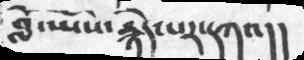བློ་ཡོས་རྙེད་པར་དཀའ།།
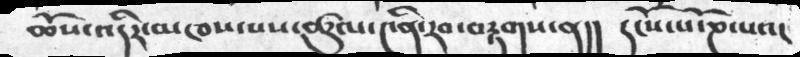ཆོས་འདིར་མཁས་པས་ཚུལ་༤ནི་རབ་བརྟགས་ན།།  དངོས་པོ་ཎ་པའང
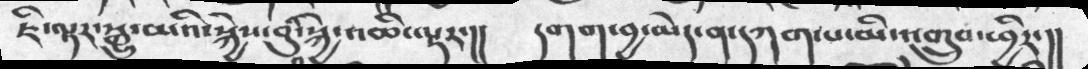ཇི་ལྟར་སྒྱུ་མའི་སྐྱེས་བུ་སྐྱེ་འཆི་ལྟར་།།   དགག་བྱ་མེད་ན་དཀག་པ་མི་འགྲུབ་ཕྱིར་།།
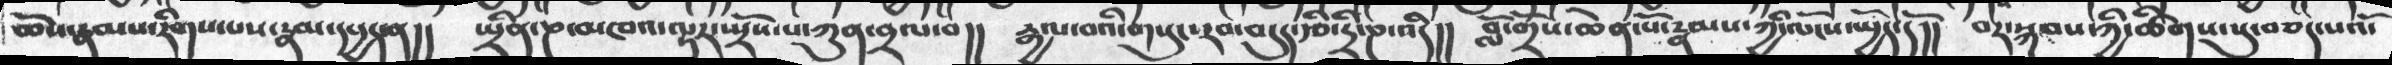ཆོས་རྣམས་རིགས་པས་རྣམ་དཔྱད་ན།།  སྤྲིན་ཎ་མཁའ་ལྟར་སྤྲོས་པ་ཀུན་བྲལ་བ།།  རྒྱལ་བའི་གསུང་རབ་བདུད་རྩི་དྲི་ཎ་འདི།།  བློ་གྲོས་ཆེན་པོ་རྣམས་ཀྱི་ལོངས་སྤྱོད་དོ།།  བར་སྐབས་ཀྱི་ཚིགས་སུ་བཅད་པའོ་
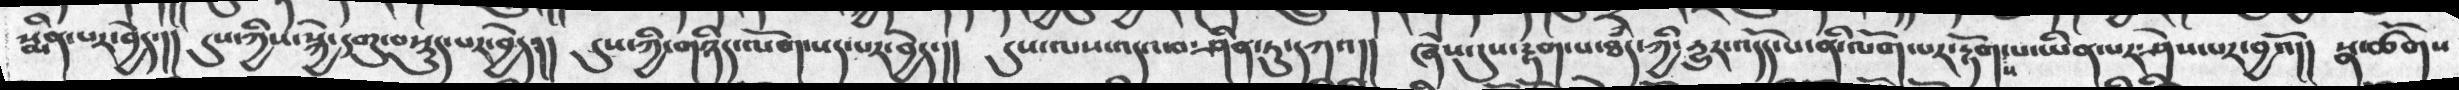སྨིན་པར་བྱེད་།།  དུས་ཀྱིས་སྐྱེ་དགུ་བསྡུད་པར་བྱེད།།  དུས་ཀྱི་གཉིད་ལོག་སད་པར་བྱེད་།།  དུས་ལས་འདའ་བ་ཤིན་ཏུ་དཀའ།།  ཞེས་དུས་རྟག་པ་ཐཾད་ཀྱི་དྱུར་འདོད་པ་ནི་ལོག་པར་རྟོགས་པ་ཡིན་པར་ཤེས་པར་བྱའོ།།  སྣ་ཚོགས
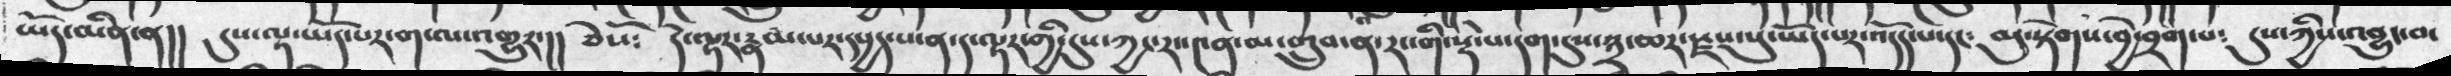ཡོད་མིན་ན།།  དུས་ལྟ་ཡོད་པར་ག་ལ་འགྱུར་།།  ཅེསོ༴  དེ་ལྟར་རྣམ་པར་དཔྱད་པ་ན་ད་ལྟར་གྱི་དུས་ཀྱང་རང་༤ན་མ་གྲུབ་ན་རང་གི་སྡེ་པ་དག་དུས་༣་ཆར་རྫས་སུ་ཡོད་པར་འདོད་པ་དང༴   མུ་སྟེགས་བྱེ་བྲག་པ༴   དུས་ཀྱིས་འབྱུང་བ་
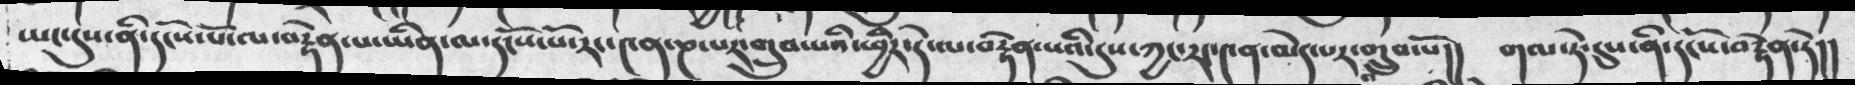ཡང་དུས་ནི་དངོས་པོ་ལ་བརྟེན་པ་ཡིན་ལ་དངོས་པོ་རང་༤ན་ཎ་པར་གྲུབ་པའི་ཕྱིར་དེ་ལ་བརྟེན་པའི་དུས་ཀྱང་རང་༤ན་མེད་པར་གྲུབ་པོ།།  གལ་ཏེ་དུས་ནི་དངོས་བརྟེན་ཏེ།།
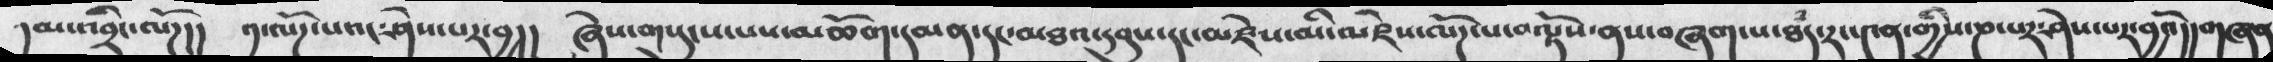དམ་འབྲིང་ལོཌ།།  ༡་ལོཌ་པའང་ཤེས་པར་བྱ།།  ཞེས་གསུངས་པས་མཆོག་དམན་དང་མཐའ་དབུས་དང་མཛེས་མི་མཛེས་ལོཌ་པ་བལྟོས་ནས་བཞག་པ་ཐཾད་རང་༤ན་གྱིས་ཎ་པར་ཤེས་པར་བྱའོ།།གཞན
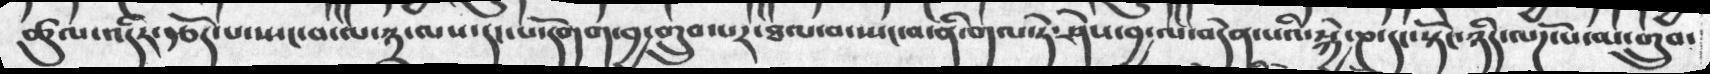ཚུལ་འདིར་རྩོད་པ་སྤང་བ་ལ་༣་ལས་དང་པོ་དགག་བྱ་གྲུབ་པར་ཐལ་བ་སྤང་བ་ནི་གལ་ཏེ་ཤེས་བྱ་ལ་བདེན་པའི་སྐྱེ་ཎ་དང་སྟོང་ཉིད་ལོཌ་པ་མ་གྲུབ་
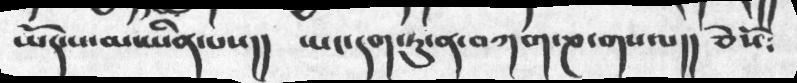ཡོད་པ་མ་ཡིན་པས།། ཡང་དག་ཏུ་ན་བཀག་ཎ་གསལ།། ཅེསོ༴
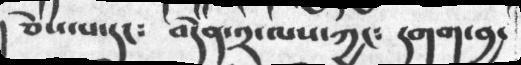། ཅེས་པ་དང༴ བདེན་༢་ལས་ཀྱང༴ དགག་བྱ་
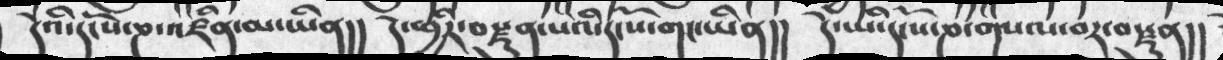དེའི་དངོས་ཎ་འཛིན་མ་ཡིན།།  དེ་ཕྱིར་བསྫུན་པའི་དངོས་གང་ཡིན།།  དེ་ཡི་དངོས་ཎ་གསལ་བར་བསྫུན།།
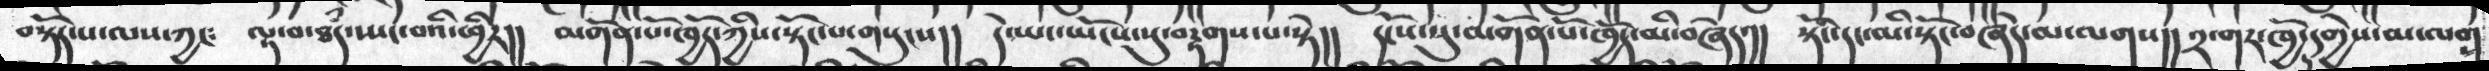བསྟོད་པ་ལས་ཀྱང༴    ལྟ་བ་ཐཾད་སྤང་བའི་ཕྱིར།།  མགོན་པོ་ཁྱོད་ཀྱིས་སྟོང་པ་གསུངས།།   དེ་ཡང་ཡོངས་སུ་བརྟགས་པ་སྟེ།།  དངོས་སུ་མགོན་པོ་ཁྱོད་མི་བཞེད་།།   སྟོང་དང་མི་སྟོང་བཞེད་མ་ལགས།།   ༢་གར་ཁྱོད་དགྱེས་མ་ལགས
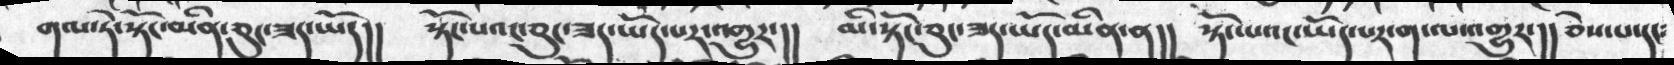གལ་ཏེ་སྟོང་མིན་ཅུང་ཟད་ཡོད།།   སྟོང་པའང་ཅུང་ཟད་ཡོད་པར་འགྱུར་།།   མི་སྟོང་ཅུང་ཟད་ཡོད་མིན་ན།།   སྟོང་པའང་ཡོད་པར་ག་ལ་འགྱུར་།། ཅེས་པ་དང༴
